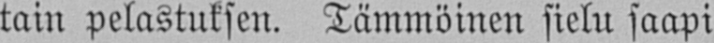tain pelastuksen. Tämmöinen sielu saapi
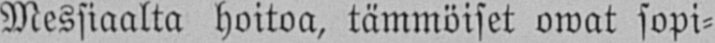Messiaalta hoitoa, tämmöiset owat sopi-
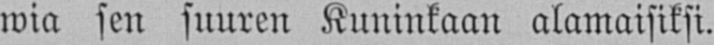wia sen suuren Kuninkaan alamaisiksi.
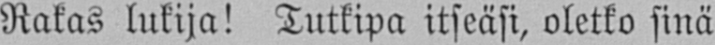Rakas lukija! Tuttipa itseäsi, oletko sinä
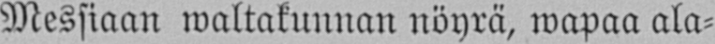Messiaan waltakunnan nöyrä, wapaa ala-
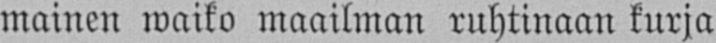mainen waiko maailman ruhtinaan kurja
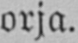orja.
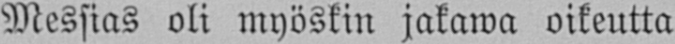Messias oli myöskin jakawa oikeutta
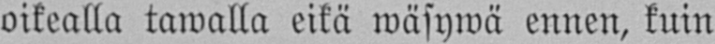oikealla tawalla eikä wäsywä ennen, kuin
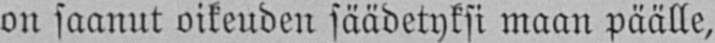on saanut oikeuden säädetyksi maan päälle,
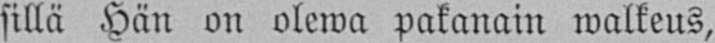sillä Hän on olewa pakanain walkeus,
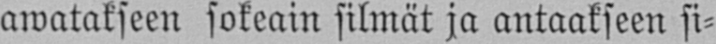awatakseen sokeain silmät ja antaakseen si-
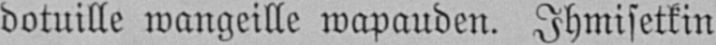dotuille wangeille wapauden. Ihmisetkin
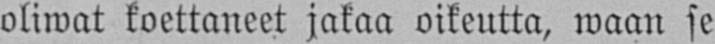oliwat koettaneet jakaa oikeutta, waan se
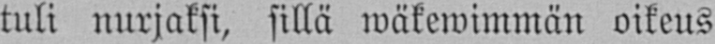tuli nurjaksi, sillä wäkewimmän oikeus
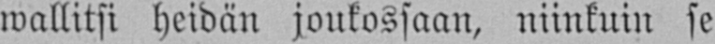wallitsi heidän joukossaan, niinkuin se
